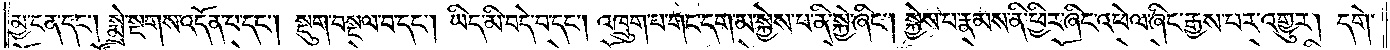མྱ་ངན་དང༌། སྨྲེ་སྔགས་འདོན་པ་དང༌། སྡུག་བསྔལ་བ་དང༌། ཡིད་མི་བདེ་བ་དང༌། འཁྲུག་པ་གང་དག་མ་སྐྱེས་པ་ནི་སྐྱེ་ཞིང༌། སྐྱེས་པ་རྣམས་ནི་ཕྱིར་ཞིང་འཕེལ་ཞིང་རྒྱས་པར་འགྱུར། དགེ་
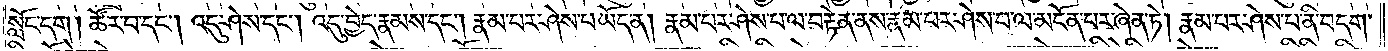སློང་དག། ཚོར་བ་དང༌། འདུ་ཤེས་དང༌། འདུ་བྱེད་རྣམས་དང༌། རྣམ་པར་ཤེས་པ་ཡོད་ན། རྣམ་པར་ཤེས་པ་ལ་བརྟེན་ནས་རྣམ་པར་ཤེས་པ་ལ་མངོན་པར་ཞེན་ཏེ། རྣམ་པར་ཤེས་པ་ནི་བདག་
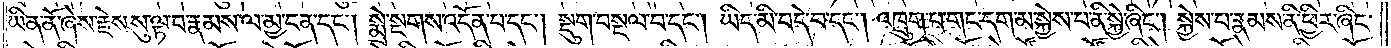ཡིན་ནོ་ཞེས་རྗེས་སུ་ལྟ་བ་རྣམས་ལ་མྱ་ངན་དང༌། སྨྲེ་སྔགས་འདོན་པ་དང༌། སྡུག་བསྔལ་བ་དང༌། ཡིད་མི་བདེ་བ་དང༌། འཁྲུག་པ་གང་དག་མ་སྐྱེས་པ་ནི་སྐྱེ་ཞིང༌། སྐྱེས་པ་རྣམས་ནི་ཕྱིར་ཞིང་
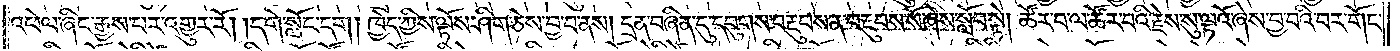འཕེལ་ཞིང་རྒྱས་པར་འགྱུར་རོ། །དགེ་སློང་དག། ཁྱེད་ཀྱིས་ལྟོས་ཤིག་ཅེས་བྱ་བ་ནས། དྲན་བཞིན་དུ་དབུགས་བརྔུབས་ན་བརྔུབས་སོ་ཞེས་སློབ་སྟེ། ཚོར་བ་ལ་ཚོར་བའི་རྗེས་སུ་ལྟའོ་ཞེས་བྱ་བའི་བར་གོང་
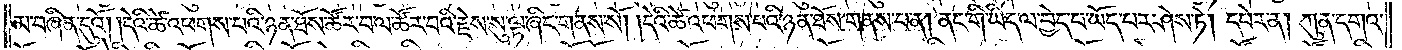མ་བཞིན་དུའོ། །དེའི་ཚེ་འཕགས་པའི་ཉན་ཐོས་ཚོར་བ་ལ་ཚོར་བའི་རྗེས་སུ་ལྟ་ཞིང་གནས་སོ། །དེའི་ཚེ་འཕགས་པའི་ཉན་ཐོས་གནས་པ་ན། ནང་གི་ཡིད་ལ་བྱེད་པ་ཡོད་པར་ཤེས་ཏེ། དཔེར་ན། ཀུན་དགའ་
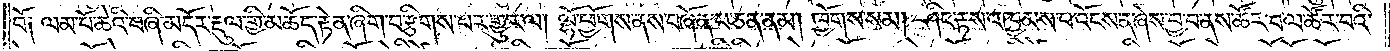བོ༑ ལམ་པོ་ཆེའི་བཞི་མདོར་རྡུལ་གྱི་མཆོད་རྟེན་ཞིག་བརྩིགས་པར་གྱུར་ལ། ལྷོ་ཕྱོགས་ནས་བཞོན་པ་ཅན་ནམ། ཁྱོགས་སམ། ཤིང་རྟས་འཁྱམས་པ་འོངས་ན་ཞེས་བྱ་བ་ནས་ཚོར་བ་ལ་ཚོར་བའི་
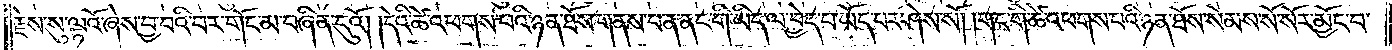རྗེས་སུ་ལྟའོ་ཞེས་བྱ་བའི་བར་གོང་མ་བཞིན་དུའོ། །དེའི་ཚེ་འཕགས་པའི་ཉན་ཐོས་གནས་པ་ན་ནང་གི་ཡིད་ལ་བྱེད་པ་ཡོད་པར་ཤེས་སོ། །གང་གི་ཚེ་འཕགས་པའི་ཉན་ཐོས་སེམས་སོ་སོར་མྱོང་བ་
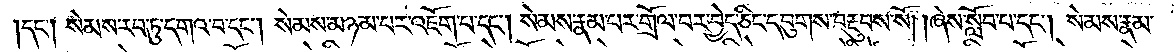དང༌། སེམས་རབ་ཏུ་དགའ་བ་དང༌། སེམས་མཉམ་པར་འཇོག་པ་དང༌། སེམས་རྣམ་པར་གྲོལ་བར་བྱེད་ཅིང་དབུགས་བརྔུབས་སོ། །ཞེས་སློབ་པ་དང༌། སེམས་རྣམ་
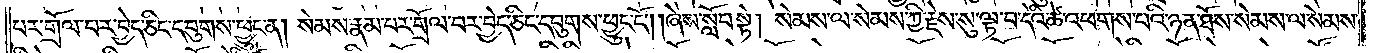པར་གྲོལ་བར་བྱེད་ཅིང་དབུགས་ཕྱུང་ན། སེམས་རྣམ་པར་གྲོལ་བར་བྱེད་ཅིང་དབུགས་ཕྱུང་ངོ༌། །ཞེས་སློབ་སྟེ། སེམས་ལ་སེམས་ཀྱི་རྗེས་སུ་ལྟ་བ་དེའི་ཚེ་འཕགས་པའི་ཉན་ཐོས་སེམས་ལ་སེམས་
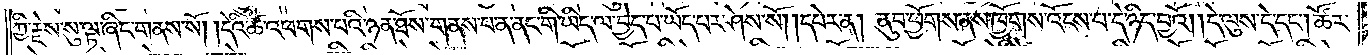ཀྱི་རྗེས་སུ་ལྟ་ཞིང་གནས་སོ། །དེའི་ཚེ་འཕགས་པའི་ཉན་ཐོས་གནས་པ་ན་ནང་གི་ཡིད་ལ་བྱེད་པ་ཡོད་པར་ཤེས་སོ། །དཔེར་ན། ནུབ་ཕྱོགས་ནས་ཁྱོགས་འོངས་པ་དེ་ཉིད་བྱའོ། །དེ་ལུས་དེ་དང༌། ཚོར་
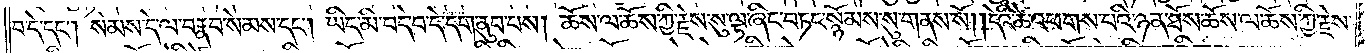བ་དེ་དང༌། སེམས་དེ་ལ་བརྣབ་སེམས་དང༌། ཡིད་མི་བདེ་བ་དེ་དག་ནུབ་པས། ཆོས་ལ་ཆོས་ཀྱི་རྗེས་སུ་ལྟ་ཞིང་བཏང་སྙོམས་སུ་གནས་སོ། །དེའི་ཚེ་འཕགས་པའི་ཉན་ཐོས་ཆོས་ལ་ཆོས་ཀྱི་རྗེས་
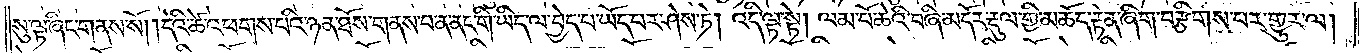སུ་ལྟ་ཞིང་གནས་སོ། །དེའི་ཚེ་འཕགས་པའི་ཉན་ཐོས་གནས་པ་ན་ནང་གི་ཡིད་ལ་བྱེད་པ་ཡོད་པར་ཤེས་ཏེ། འདི་ལྟ་སྟེ། ལམ་པོ་ཆེའི་བཞི་མདོར་རྡུལ་གྱི་མཆོད་རྟེན་ཞིག་བརྩིགས་པར་གྱུར་ལ།
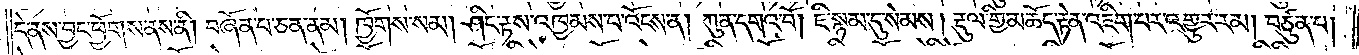དེ་ནས་བྱང་ཕྱོགས་ནས་ནི། བཞོན་པ་ཅན་ནམ། ཁྱོགས་སམ། ཤིང་རྟས་འཁྱམས་པ་འོངས་ན། ཀུན་དགའ་བོ། ཇི་སྙམ་དུ་སེམས། རྡུལ་གྱི་མཆོད་རྟེན་འཇིག་པར་འགྱུར་རམ། བཙུན་པ།
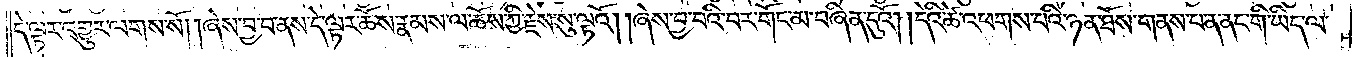དེ་ལྟར་འགྱུར་ལགས་སོ། །ཞེས་བྱ་བ་ནས་དེ་ལྟར་ཆོས་རྣམས་ལ་ཆོས་ཀྱི་རྗེས་སུ་ལྟའོ། །ཞེས་བྱ་བའི་བར་གོང་མ་བཞིན་དུའོ། །དེའི་ཚེ་འཕགས་པའི་ཉན་ཐོས་གནས་པ་ན་ནང་གི་ཡིད་ལ་
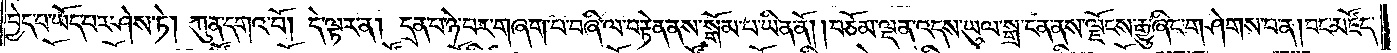བྱེད་པ་ཡོད་པར་ཤེས་ཏེ། ཀུན་དགའ་བོ། དེ་ལྟར་ན། དྲན་པ་ཉེ་བར་གཞག་པ་བཞི་ལ་བརྟེན་ནས་སྒོམ་པ་ཡིན་ནོ། །བཅོམ་ལྡན་འདས་ཡུལ་སྒྲ་ངན་ནས་ལྗོངས་རྒྱུ་ཞིང་གཤེགས་པ་ན། བང་མཛོད་
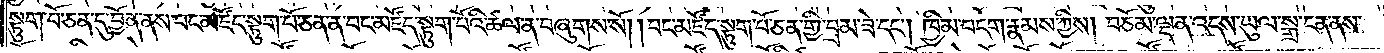སྟུག་པོ་ཅན་དུ་བྱོན་ནས་བང་མཛོད་སྟུག་པོ་ཅན་ན་བང་མཛོད་སྟུག་པོའི་ཚལ་ན་བཞུགས་སོ། །བང་མཛོད་སྟུག་པོ་ཅན་གྱི་བྲམ་ཟེ་དང༌། ཁྱིམ་བདག་རྣམས་ཀྱིས། བཅོམ་ལྡན་འདས་ཡུལ་སྒྲ་ངན་ནས་
